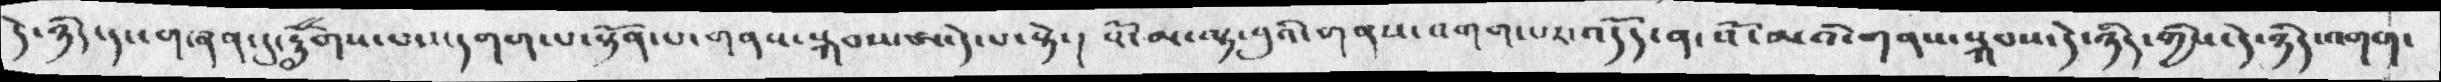དེ་ཉིད་དང་གཞན་དུ་བརྟོགས་པར་དགག་པ་སྟོན་པ་གནས་སྐབས་ཨ་དེ་པ་སྟེ་།  སོ་མ་ལྟ་བུའི་གནས་འགག་པར་འདོད་ན་སོ་མའི་གནས་སྐབས་དེ་ཉིད་གྱིས་དེ་ཉིད་འགག་
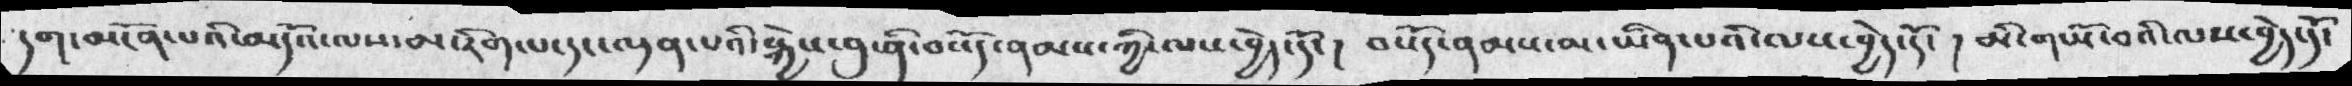དག་མངོན་པའི་མདོའ་ལས་མ་རིག་པ་དང་ལྡན་པའི་སྐྱེས་བུ་ནི་བསོད་ནམས་ཀྱི་ལས་བྱེད་དོ་ །  བསོད་ནམས་མ་ཡིན་པའི་ལས་བྱེད་དོ་ ། མི་གཡོ་བའི་ལས་བྱེད་དོ་
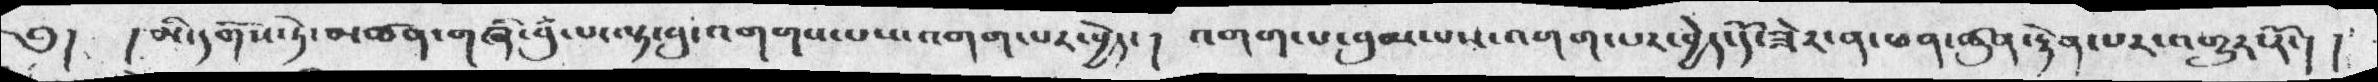༄། །མི་དགོས་ཏེ་མཚན་གཞི་བུཾ་པ་ལྟ་བུ་འགགས་པས་འགག་པར་བྱེད་ ། འགག་པ་བུམ་པས་འགག་པར་བྱེད་དོ་ཟེར་ན་ཕན་ཚུན་རྟེན་པར་འགྱུར་རོ་། །
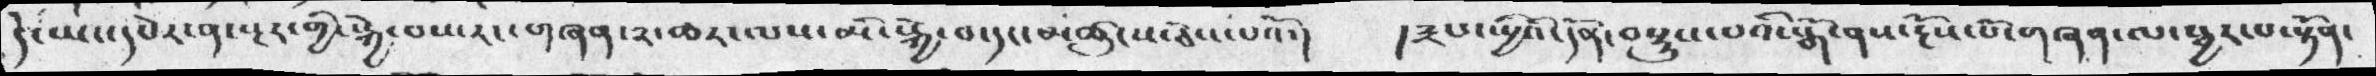དེ་ཡང་དཔེར་ན་སྔར་གྱི་སྐྱེ་བས་རང་གཞན་༢་ཆར་ལས་མི་སྐྱེ་བ་དང་མཚུངས་ཅེས་པའོ་།   །༣པ་སྤྱིའི་དོན་བསྡུས་པའི་སྒོ་ནས་རྔོས་པོ་གཞན་ལ་སྦྱར་པ་སྟོན་
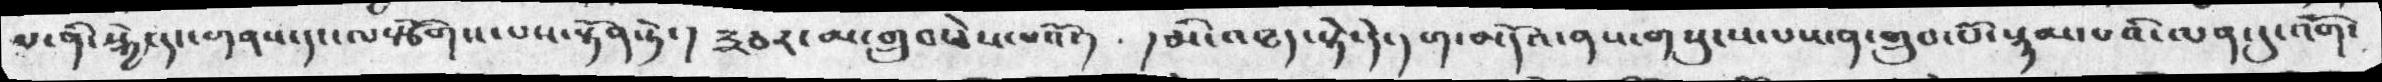པ་ནི་སྐྱེ་དང་གནས་དང་ལསྩོགས་པས་སྟོན་ཏེ་།  ༣ཅར་མ་གྲུབ་ཅེས་པའོ་།   ། མི་འཐད་སྟེ་དེ་དག་མདོའ་ནས་གསུངས་པས་ན་གྲུབ་པོ་སྙམ་པའི་ལན་དུ་འགོ་
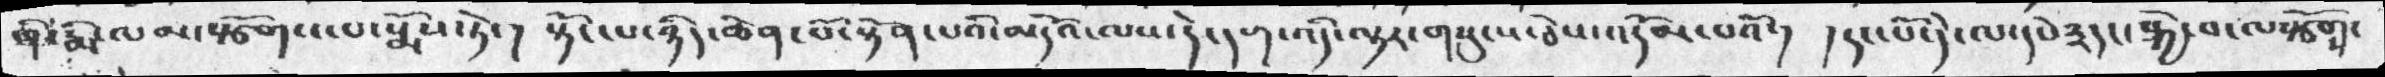ནི་རྨི་ལམ་སསྩོགས་སསྨོས་ཏེ་།  སྟོང་པ་ཉིད་ཆེན་པོ་སྟོན་པའི་མདོའ་ལས་དེ་དག་འདི་ལྟར་གསུངས་ཅེས་འདོམ་པའོ་།  །  དང་པོ་དེ་ལ་དཔེ༣དང་སྐྱེ་བ་ལསྩོགས་
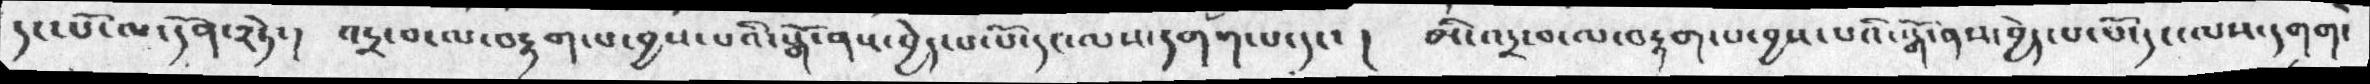དང་པོ་ལ་དོན་༢ཏེ་།   འདྲ་བ་ལ་བརྟག་པ་བྱས་པའི་སྒོ་ནས་བྱེད་པ་པོ་དང་ལས་དགག་པ་དང་ །   མི་འདྲ་བ་ལ་བརྟག་པ་བྱས་པའི་སྒོ་ནས་བྱེད་པ་པོ་དང་ལས་དགག་
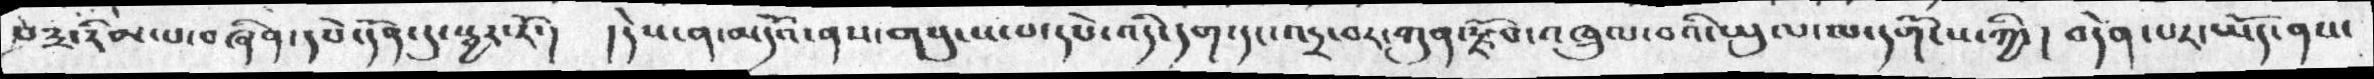པ༣་རིམ་པ་བཞིན་དཔེ་དོན་དུ་སྦྱར་རོ་།   ། དེས་ན་མདོའ་ནས་གསུངས་པ་དཔེ་འདི་དག་དང་འདྲ་བར་ཀུན་རྗོབ་འཁྲུལ་བའི་ཡུལ་ལ་དགོངས་ཀྱི་ ། བདེན་པར་ཡོད་ནས་
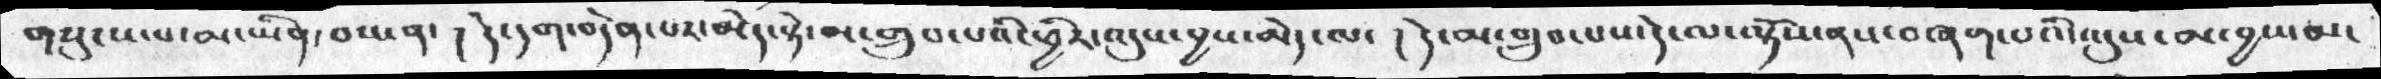གསུངས་པ་མ་ཡིན་བས་ན་ ། དེ་དག་བདེན་པར་མེད་སྟེ་མ་གྲུབ་པའི་ཕྱིར་འདུས་བྱས་མེད་ལ་ ། དེ་མ་གྲུབ་པས་དེ་ལ་ལྟོས་ན་བཞག་པའི་འདུས་མ་བྱས་མ་
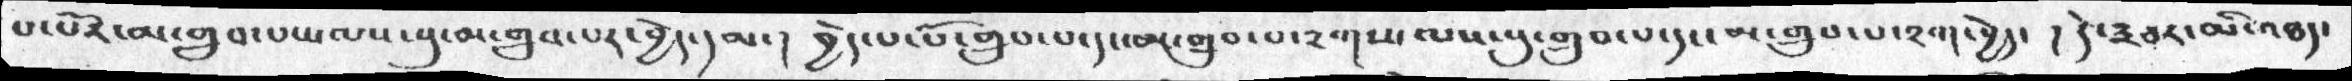པ་པོར་མ་གྲུབ་པས་ལས་སུ་མ་གྲུབ་པར་བྱེད་དམ་ ། བྱེད་པ་པོ་གྲུབ་པ་དང་མ་གྲུབ་པ་༢ཀས་ལས་སུ་གྲུབ་པ་དང་མ་གྲུབ་པ་༢ཀ་བྱེད་  ། དེ་༣བར་མི་འཐད་
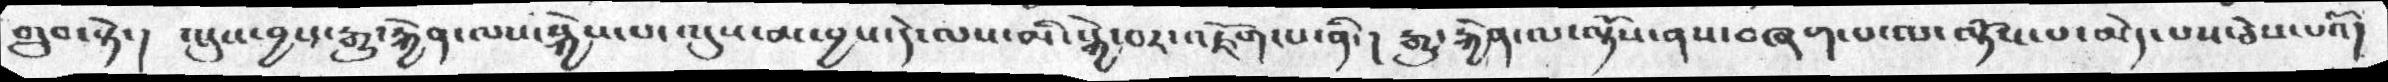གྲུབ་སྟེ་།  འདུས་བྱས་རྒྱུ་རྐྱེན་ལས་སྐྱེས་པ་འདུས་མ་བྱས་དེ་ལས་མི་སྐྱེ་བར་འཇོག་པ་ནི་།  རྒྱུ་རྐྱེན་ལ་ལྟོས་ནས་བཞག་པ་ལ་ལྟོས་པ་མེད་པས་ཅེས་པའོ།
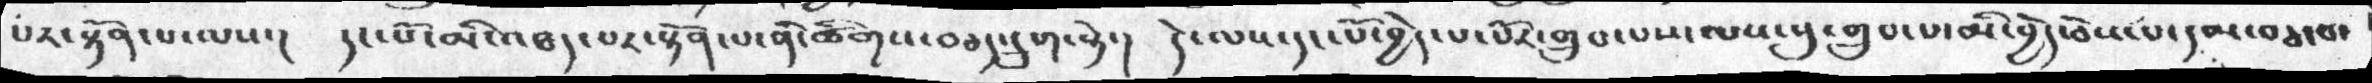པར་སྟོན་པ་ལས་། དང་པོ་མི་འཐད་པར་སྟོན་པ་ནི་ཚིགས་བཤད་དྲུག་སྟེ་། དེ་ལས་དང་པོ་བྱེད་པ་པོར་གྲུབ་པས་ལས་སུ་གྲུབ་པ་མི་བྱེད་ཅེས་པ་དམ་བཅ་པ་
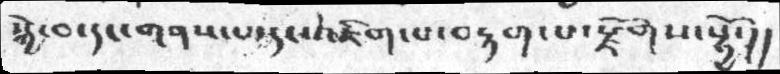སྐྱེ་བ་དང་གནས་པ་དང་འཇིག་པ་བརྟག་པ་རྫོགས་སྷྱོ་།།
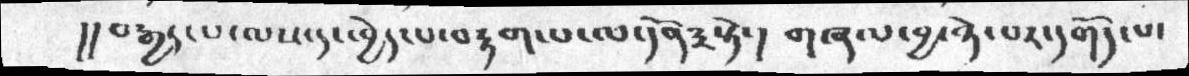།།བརྒྱད་པ་ལས་དང་བྱེད་པ་བརྟག་པ་ལ་དོན༣་སྟེ་། གཞལ་བྱ་ཉེ་པར་འགོད་པ་
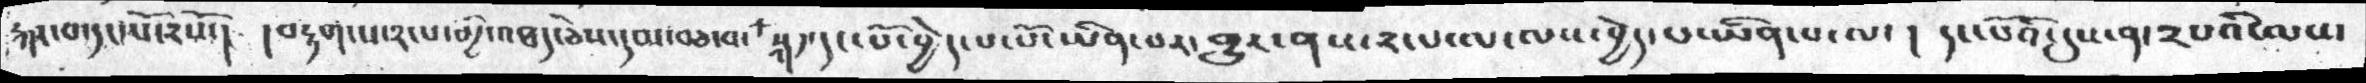རྐང་བ་དང་པོ་༢སོ་།  །བརྟག་པ་༢་པ་གྱུ་འཐད་ཅེས་དམ་བཅ་སྐ༡་དང་པོ་བྱེད་པ་པོ་ཡིན་པར་བྱུར་ནས་༢་པ་ལ་ལས་བྱེད་པ་ཡིན་པ་ལ་ །དང་པོའི་དུས་ན་༢པའི་ལས་
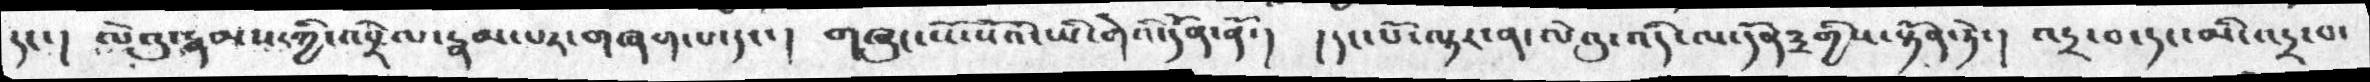དང་།  ལེའུ་རྣམས་ཀྱིས་འབྲེལ་རྣམ་པར་གཞག་པ་དང་།  གཞུང་སོ་སོའི་ཡི་གེའི་དོན་ནོ་།  །དང་པོ་ལྟར་ན་ལེའུ་འདི་ལ་དོན༣གྱིས་སྟོན་ཏེ་།  འདྲ་བ་དང་མི་འདྲ་བ་
